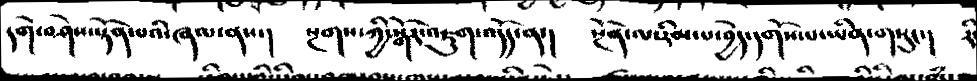དགེ་བཤེས་སྟོན་པའི་ཞལ་ནས་།   སྔགས་ཀྱི་སྒོར་འཇུག་འདོད་ན་།  སྔོན་ལ་རིམ་པ་བྱེད་དགོས་པ་ཡིན་གསུང་།   རི་
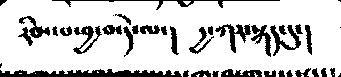རིམ་པ་བྱ་བ་དེ་ལ་།   དྱ་ཀར་སྐད་དུ་།
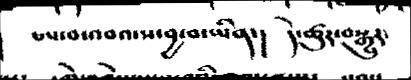ཅས་བ་འབའ་ས་་བྱ་བ་ཡིན་།  དེ་ཚུར་བསྒྱུར་
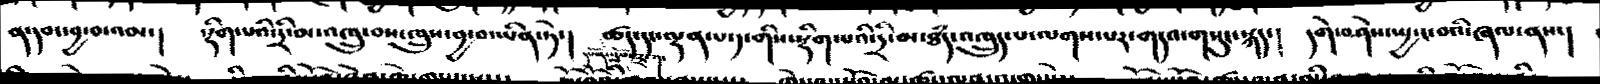ན་དབང་བྱ་བ་འམ་།   སྡིག་པའི་དྲི་མ་འཁྲུ་བས་ཁྲུས་བྱ་བ་ཡིན་ཏེ་།  ཚད་དང་ལྡན་པ་༡་གིས་སྡིག་པའི་དྲི་མ་ཐཾད་འཁྲུད་པ་ལགས་པར་གདའ་གསུང་སྐད་།   དགེ་བཤེས་སྤྱ་ང་བའི་ཞལ་ནས་།
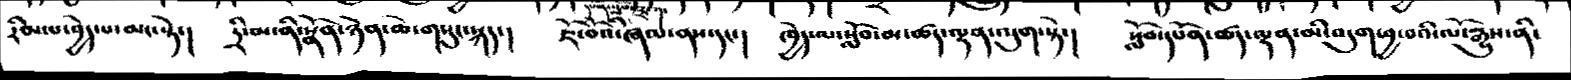རིམ་པ་བྱེད་པ་མང་སྟེ་།  དྲི་མ་ནི་སྣོང་ཉེན་ཆེ་གསུང་སྐད་།  ཇོ་བོའི་ཞལ་ནས་དང་།  ཁྱེད་ལ་སློབ་མ་ཚད་ལྡན་འདུག་སྟེ་།  སློབ་དཔོན་ཚད་ལྡན་མི་བདུག་བྱ་བའི་ལོ་རྒྱུས་ནི་
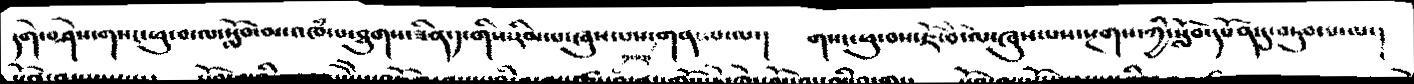དགེ་བཤེས་གསང་ཕུ་བ་ལ་སློབ་མ་འཁཾ་པ་ཐུགས་ཟིན་༡་གིས་རིམ་པ་ཞུས་པས་གནས་པ་ལ་།  གསང་ཕུ་བས་ཇོ་མོ་ལ་ཞུས་པས་སྔགས་ཀྱི་སློབ་དཔོན་དུ་བཏུབ་པ་ལ་།
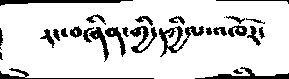རང་བཞིན་གྱི་དཀྱིལ་འཁོར་
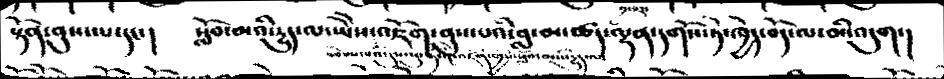སྟོན་ནུས་པ་དང་།   སློབ་མའི་དྱུད་ལ་ཡེེས་འཇོག་ནུས་པའི་བླ་མ་ཚད་ལྡན་དགོས་ཏེ་ཁྱེད་བོད་ལ་མི་འདུག་།
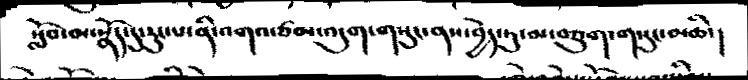སློབ་མ་སྣོད་དུ་རུང་པ་ནི་འགའ་ཙམ་འདུག་གསུང་ནས་བྱེད་ཏུ་མ་བཅུག་གསུང་མཆི་།
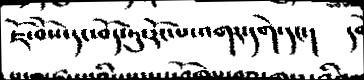ཇོ་བོས་དང་བོད་ཏུ་རོང་འགར་དགེ་དང་།  དགེ
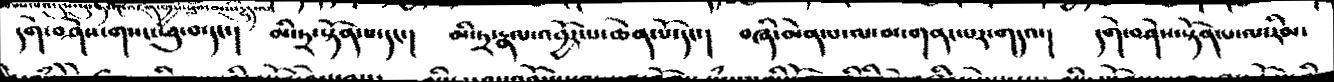དགེ་བཤེས་གསང་ཕུ་བ་དང་།   མི་ཏྲ་སྟོན་པ་དང་།   མི་ཏྲ་རྣལ་འབྱོར་པ་ཆེན་པོ་དང་།   བཞི་མེན་པ་ལ་མ་གནང་པར་གདའ་།   དགེ་བཤེས་སྟོན་པ་ལ་རིམ་
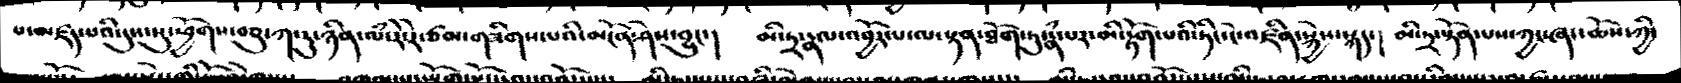པ་མཛད་པའི་དུས་སུ་ཕྱོགས་་བཅུ་ཀ་རུ་ཉིན་ལཾ་རེ་རེ་ཙམ་གཟིགས་པའི་མངོན་ཤེས་བྱུང་།  མི་ཏྲ་རྣལ་འབྱོར་པ་ལ་སྟན་ཐོག་ཏུ་རྣཾ་པར་མི་རྟོག་པའི་ཏིང་ངེ་འཛིན་སྐྱེས་སྐད་།    མི་ཏྲ་སྟོན་པས་ཀྱང་ཞང་ཆོས་ཀྱི་
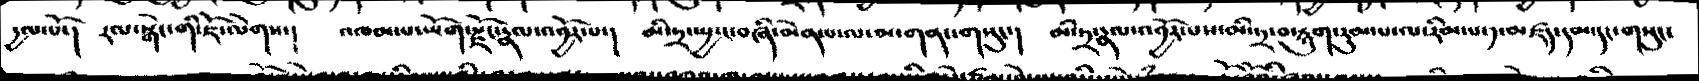དྱལ་པོ་།   རལ་སྒེང་གི་ཇོ་ལེགས་།   འཁམ་པ་ཡོག་རྫོང་རྣལ་འབྱོར་པ་།   མི་ཏྲ་སྤྱ་ང་བཞི་མེན་པ་ལ་མ་གནང་གསུང་།   མི་ཏྲ་རྣལ་འབྱོར་པས་མི་ཏྲ་བསྙུག་རུམ་པ་ལ་རིམ་པ་༡་མཛད་དམ་དང་གསུང་
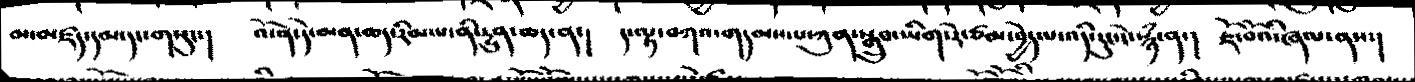མ་མཛད་དམ་དང་གསུང་།   འོ་ན་དེ་མན་ཆད་རིམ་པ་ནི་དྱུན་ཆད་ན་།   ད་ལྟ་བཀའ་གདམས་པ་ཀུན་སྒྲུབ་ཡིག་རེ་ཙམ་བྱེད་པ་འདི་རུང་ངཾ་སྙཾ་ན་།   ཇོ་བའི་ཞལ་ནས་།
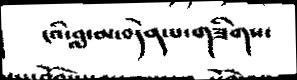ངའི་བླ་མ་བདེན་པ་གཟིགས་
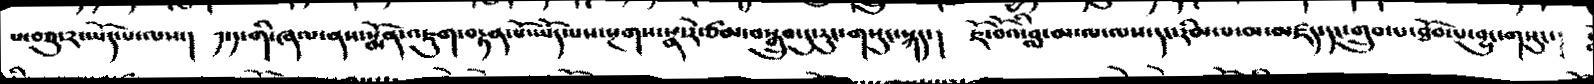ས་བཅུ་༢་ཡོད་པ་ལས་།   ༡་༡་གི་ཞལ་ནས་སྨོན་འཇུག་བརྟན་པོ་ཡོད་པས་སྔགས་སྣ་རེ་ཙམ་བསྒྲུབ་དུ་རུང་གསུང་སྐད་།  ཇོ་བོའི་བླ་མ་ལ་ལས་དང་རིམ་པ་མཛད་དང་གྲུབ་པ་ཐོབ་པ་བྱུང་གསུང་།
